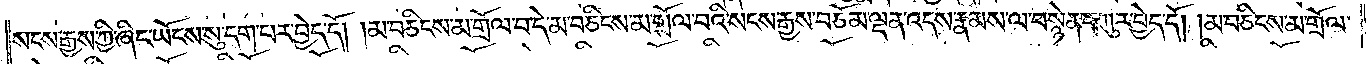སངས་རྒྱས་ཀྱི་ཞིང་ཡོངས་སུ་དག་པར་བྱེད་དོ། །མ་བཅིངས་མ་གྲོལ་བ་དེ་མ་བཅིངས་མ་གྲོལ་བའི་སངས་རྒྱས་བཅོམ་ལྡན་འདས་རྣམས་ལ་བསྙེན་བཀུར་བྱེད་དོ། །མ་བཅིངས་མ་གྲོལ་
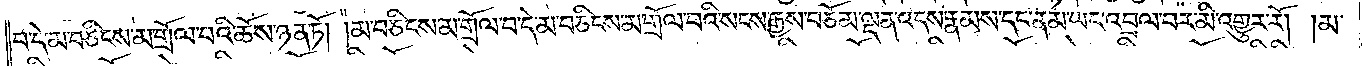བ་དེ་མ་བཅིངས་མ་གྲོལ་བའི་ཆོས་ཉན་ཏོ། །མ་བཅིངས་མ་གྲོལ་བ་དེ་མ་བཅིངས་མ་གྲོལ་བའི་སངས་རྒྱས་བཅོམ་ལྡན་འདས་རྣམས་དང་ནམ་ཡང་འབྲལ་བར་མི་འགྱུར་རོ། །མ་
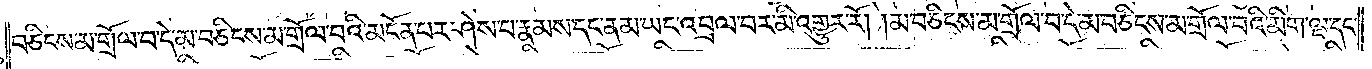བཅིངས་མ་གྲོལ་བ་དེ་མ་བཅིངས་མ་གྲོལ་བའི་མངོན་པར་ཤེས་པ་རྣམས་དང་ནམ་ཡང་འབྲལ་བར་མི་འགྱུར་རོ། །མ་བཅིངས་མ་གྲོལ་བ་དེ་མ་བཅིངས་མ་གྲོལ་བའི་མིག་ལྔ་དང་
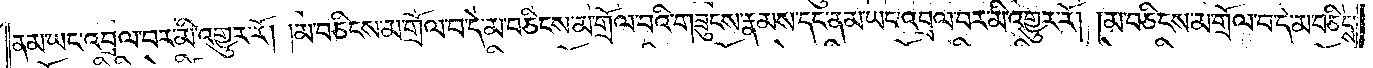ནམ་ཡང་འབྲལ་བར་མི་འགྱུར་རོ། །མ་བཅིངས་མ་གྲོལ་བ་དེ་མ་བཅིངས་མ་གྲོལ་བའི་གཟུངས་རྣམས་དང་ནམ་ཡང་འབྲལ་བར་མི་འགྱུར་རོ། །མ་བཅིངས་མ་གྲོལ་བ་དེ་མ་བཅིངས་
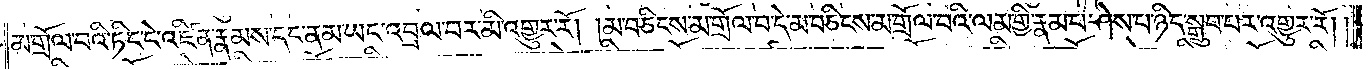མ་གྲོལ་བའི་ཏིང་ངེ་འཛིན་རྣམས་དང་ནམ་ཡང་འབྲལ་བར་མི་འགྱུར་རོ། །མ་བཅིངས་མ་གྲོལ་བ་དེ་མ་བཅིངས་མ་གྲོལ་བའི་ལམ་གྱི་རྣམ་པ་ཤེས་པ་ཉིད་སྒྲུབ་པར་འགྱུར་རོ། །
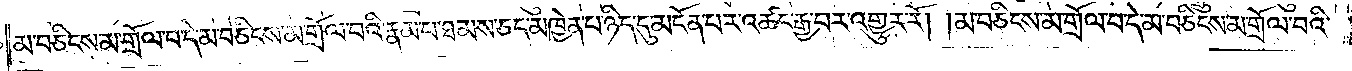མ་བཅིངས་མ་གྲོལ་བ་དེ་མ་བཅིངས་མ་གྲོལ་བའི་རྣམ་པ་ཐམས་ཅད་མཁྱེན་པ་ཉིད་དུ་མངོན་པར་འཚང་རྒྱ་བར་འགྱུར་རོ། །མ་བཅིངས་མ་གྲོལ་བ་དེ་མ་བཅིངས་མ་གྲོལ་བའི་
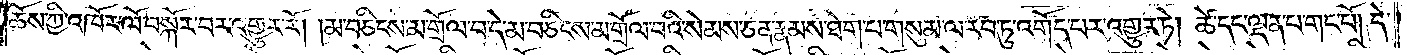ཆོས་ཀྱི་འཁོར་ལོ་བསྐོར་བར་འགྱུར་རོ། །མ་བཅིངས་མ་གྲོལ་བ་དེ་མ་བཅིངས་མ་གྲོལ་བའི་སེམས་ཅན་རྣམས་ཐེག་པ་གསུམ་ལ་རབ་ཏུ་འགོད་པར་འགྱུར་ཏེ། ཚེ་དང་ལྡན་པ་གང་པོ། དེ་
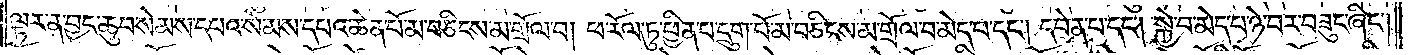ལྟར་ན་བྱང་ཆུབ་སེམས་དཔའ་སེམས་དཔའ་ཆེན་པོ་མ་བཅིངས་མ་གྲོལ་བ། ཕ་རོལ་ཏུ་ཕྱིན་པ་དྲུག་པོ་མ་བཅིངས་མ་གྲོལ་བ་མེད་པ་དང༌། དབེན་པ་དང༌། སྐྱེ་བ་མེད་པའི་བར་བཟུང་ཞིང༌།
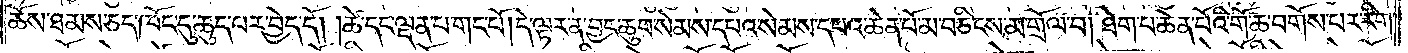ཆོས་ཐམས་ཅད་ཁོང་དུ་ཆུད་པར་བྱེད་དོ། །ཚེ་དང་ལྡན་པ་གང་པོ། དེ་ལྟར་ན་བྱང་ཆུབ་སེམས་དཔའ་སེམས་དཔའ་ཆེན་པོ་མ་བཅིངས་མ་གྲོལ་བ། ཐེག་པ་ཆེན་པོའི་གོ་ཆ་བགོས་པར་རིག་
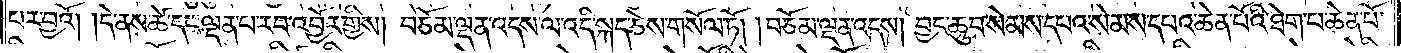པར་བྱའོ། །དེ་ནས་ཚེ་དང་ལྡན་པ་རབ་འབྱོར་གྱིས། བཅོམ་ལྡན་འདས་ལ་འདི་སྐད་ཅེས་གསོལ་ཏོ། །བཅོམ་ལྡན་འདས། བྱང་ཆུབ་སེམས་དཔའ་སེམས་དཔའ་ཆེན་པོའི་ཐེག་པ་ཆེན་པོ་
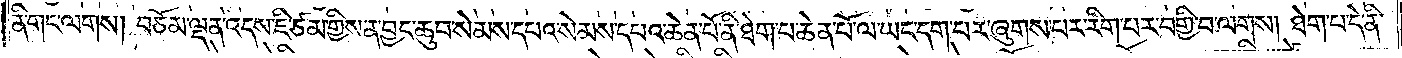ནི་གང་ལགས། བཅོམ་ལྡན་འདས་ཇི་ཙམ་གྱིས་ན་བྱང་ཆུབ་སེམས་དཔའ་སེམས་དཔའ་ཆེན་པོ་ནི་ཐེག་པ་ཆེན་པོ་ལ་ཡང་དག་པར་ཞུགས་པར་རིག་པར་བགྱི་བ་ལགས། ཐེག་པ་དེ་ནི་
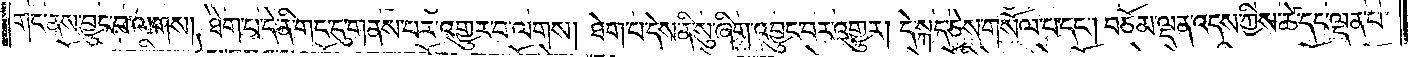གང་ནས་བྱུང་བ་ལགས། ཐེག་པ་དེ་ནི་གང་དུ་གནས་པར་འགྱུར་བ་ལགས། ཐེག་པ་དེས་ནི་སུ་ཞིག་འབྱུང་བར་འགྱུར། དེ་སྐད་ཅེས་གསོལ་པ་དང༌། བཅོམ་ལྡན་འདས་ཀྱིས་ཚེ་དང་ལྡན་པ་
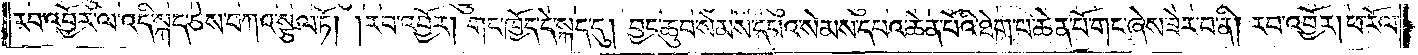རབ་འབྱོར་ལ་འདི་སྐད་ཅེས་བཀའ་སྩལ་ཏོ། །རབ་འབྱོར། གང་ཁྱོད་དེ་སྐད་དུ། བྱང་ཆུབ་སེམས་དཔའ་སེམས་དཔའ་ཆེན་པོའི་ཐེག་པ་ཆེན་པོ་གང་ཞེས་ཟེར་བ་ནི། རབ་འབྱོར། ཕ་རོལ་
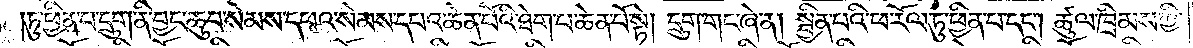ཏུ་ཕྱིན་པ་དྲུག་ནི་བྱང་ཆུབ་སེམས་དཔའ་སེམས་དཔའ་ཆེན་པོའི་ཐེག་པ་ཆེན་པོ་སྟེ། དྲུག་གང་ཞེ་ན། སྦྱིན་པའི་ཕ་རོལ་ཏུ་ཕྱིན་པ་དང༌། ཚུལ་ཁྲིམས་ཀྱི་
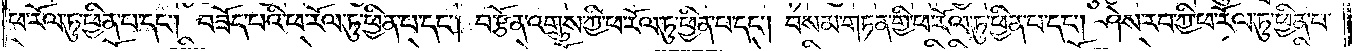ཕ་རོལ་ཏུ་ཕྱིན་པ་དང༌། བཟོད་པའི་ཕ་རོལ་ཏུ་ཕྱིན་པ་དང༌། བརྩོན་འགྲུས་ཀྱི་ཕ་རོལ་ཏུ་ཕྱིན་པ་དང༌། བསམ་གཏན་གྱི་ཕ་རོལ་ཏུ་ཕྱིན་པ་དང༌། ཤེས་རབ་ཀྱི་ཕ་རོལ་ཏུ་ཕྱིན་པ་
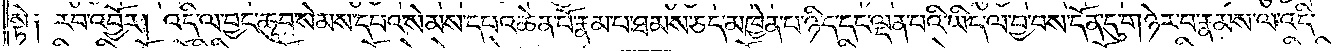སྟེ། རབ་འབྱོར། འདི་ལ་བྱང་ཆུབ་སེམས་དཔའ་སེམས་དཔའ་ཆེན་པོ་རྣམ་པ་ཐམས་ཅད་མཁྱེན་པ་ཉིད་དང་ལྡན་པའི་ཡིད་ལ་བྱ་བས་དོན་དུ་གཉེར་བ་རྣམས་ལ་འདི་
